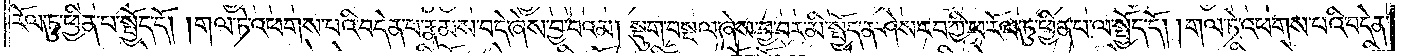རོལ་ཏུ་ཕྱིན་པ་ལ་སྤྱོད་དོ། །གལ་ཏེ་འཕགས་པའི་བདེན་པ་རྣམས་བདེ་ཞེས་བྱ་བའམ། སྡུག་བསྔལ་ཞེས་བྱ་བར་མི་སྤྱོད་ན་ཤེས་རབ་ཀྱི་ཕ་རོལ་ཏུ་ཕྱིན་པ་ལ་སྤྱོད་དོ། །གལ་ཏེ་འཕགས་པའི་བདེན་
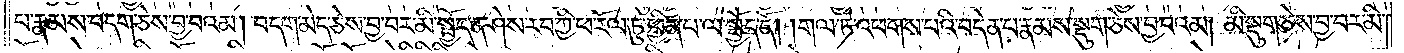པ་རྣམས་བདག་ཅེས་བྱ་བའམ། བདག་མེད་ཅེས་བྱ་བར་མི་སྤྱོད་ན་ཤེས་རབ་ཀྱི་ཕ་རོལ་ཏུ་ཕྱིན་པ་ལ་སྤྱོད་དོ། །གལ་ཏེ་འཕགས་པའི་བདེན་པ་རྣམས་སྡུག་ཅེས་བྱ་བའམ། མི་སྡུག་ཅེས་བྱ་བར་མི་
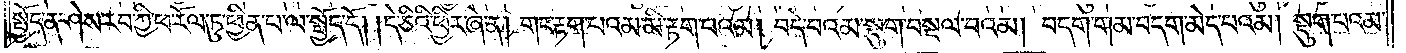སྤྱོད་ན་ཤེས་རབ་ཀྱི་ཕ་རོལ་ཏུ་ཕྱིན་པ་ལ་སྤྱོད་དོ། །དེ་ཅིའི་ཕྱིར་ཞེ་ན། གང་རྟག་པའམ་མི་རྟག་པའམ། བདེ་བའམ་སྡུག་བསྔལ་བའམ། བདག་གམ་བདག་མེད་པའམ། སྡུག་པའམ་
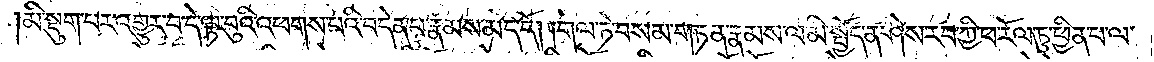མི་སྡུག་པར་འགྱུར་བ་དེ་ལྟ་བུའི་འཕགས་པའི་བདེན་པ་རྣམས་མེད་དོ། །གལ་ཏེ་བསམ་གཏན་རྣམས་ལ་མི་སྤྱོད་ན་ཤེས་རབ་ཀྱི་ཕ་རོལ་ཏུ་ཕྱིན་པ་ལ་
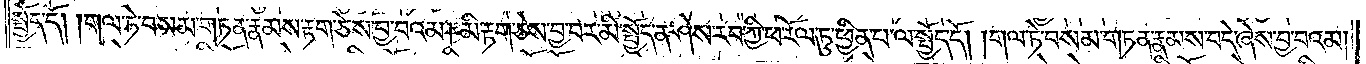སྤྱོད་དོ། །གལ་ཏེ་བསམ་གཏན་རྣམས་རྟག་ཅེས་བྱ་བའམ། མི་རྟག་ཅེས་བྱ་བར་མི་སྤྱོད་ན་ཤེས་རབ་ཀྱི་ཕ་རོལ་ཏུ་ཕྱིན་པ་ལ་སྤྱོད་དོ། །གལ་ཏེ་བསམ་གཏན་རྣམས་བདེ་ཞེས་བྱ་བའམ།
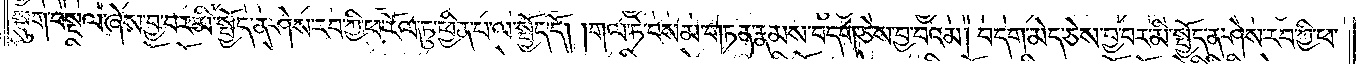སྡུག་བསྔལ་ཞེས་བྱ་བར་མི་སྤྱོད་ན་ཤེས་རབ་ཀྱི་ཕ་རོལ་ཏུ་ཕྱིན་པ་ལ་སྤྱོད་དོ། །གལ་ཏེ་བསམ་གཏན་རྣམས་བདག་ཅེས་བྱ་བའམ། བདག་མེད་ཅེས་བྱ་བར་མི་སྤྱོད་ན་ཤེས་རབ་ཀྱི་ཕ་
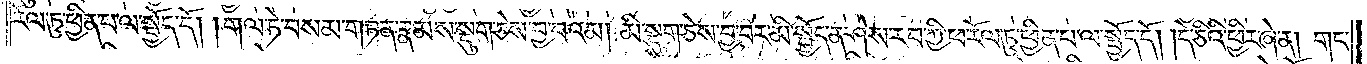རོལ་ཏུ་ཕྱིན་པ་ལ་སྤྱོད་དོ། །གལ་ཏེ་བསམ་གཏན་རྣམས་སྡུག་ཅེས་བྱ་བའམ། མི་སྡུག་ཅེས་བྱ་བར་མི་སྤྱོད་ན་ཤེས་རབ་ཀྱི་ཕ་རོལ་ཏུ་ཕྱིན་པ་ལ་སྤྱོད་དོ། །དེ་ཅིའི་ཕྱིར་ཞེ་ན། གང་
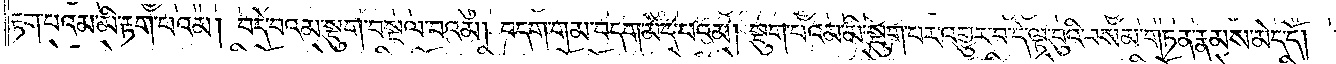རྟག་པའམ་མི་རྟག་པའམ། བདེ་བའམ་སྡུག་བསྔལ་བའམ། བདག་གམ་བདག་མེད་པའམ། སྡུག་པའམ་མི་སྡུག་པར་འགྱུར་བ་དེ་ལྟ་བུའི་བསམ་གཏན་རྣམས་མེད་དོ། །
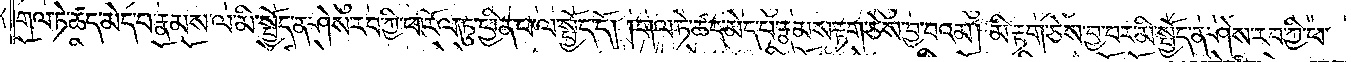གལ་ཏེ་ཚད་མེད་པ་རྣམས་ལ་མི་སྤྱོད་ན་ཤེས་རབ་ཀྱི་ཕ་རོལ་ཏུ་ཕྱིན་པ་ལ་སྤྱོད་དོ། །གལ་ཏེ་ཚད་མེད་པ་རྣམས་རྟག་ཅེས་བྱ་བའམ། མི་རྟག་ཅེས་བྱ་བར་མི་སྤྱོད་ན་ཤེས་རབ་ཀྱི་ཕ་
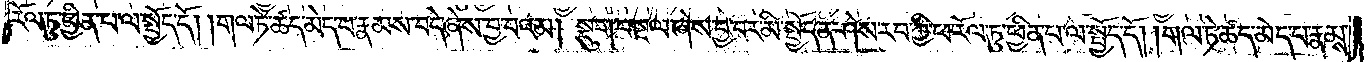རོལ་ཏུ་ཕྱིན་པ་ལ་སྤྱོད་དོ། །གལ་ཏེ་ཚད་མེད་པ་རྣམས་བདེ་ཞེས་བྱ་བའམ། སྡུག་བསྔལ་ཞེས་བྱ་བར་མི་སྤྱོད་ན་ཤེས་རབ་ཀྱི་ཕ་རོལ་ཏུ་ཕྱིན་པ་ལ་སྤྱོད་དོ། །གལ་ཏེ་ཚད་མེད་པ་རྣམས་
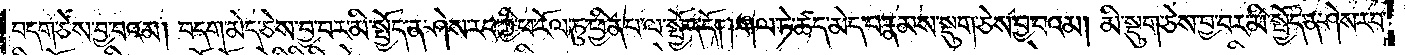བདག་ཅེས་བྱ་བའམ། བདག་མེད་ཅེས་བྱ་བར་མི་སྤྱོད་ན་ཤེས་རབ་ཀྱི་ཕ་རོལ་ཏུ་ཕྱིན་པ་ལ་སྤྱོད་དོ། །གལ་ཏེ་ཚད་མེད་པ་རྣམས་སྡུག་ཅེས་བྱ་བའམ། མི་སྡུག་ཅེས་བྱ་བར་མི་སྤྱོད་ན་ཤེས་རབ་
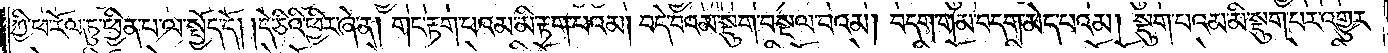ཀྱི་ཕ་རོལ་ཏུ་ཕྱིན་པ་ལ་སྤྱོད་དོ། །དེ་ཅིའི་ཕྱིར་ཞེ་ན། གང་རྟག་པའམ་མི་རྟག་པའམ། བདེ་བའམ་སྡུག་བསྔལ་བའམ། བདག་གམ་བདག་མེད་པའམ། སྡུག་པའམ་མི་སྡུག་པར་འགྱུར་
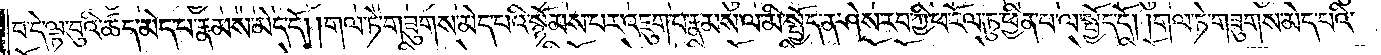བ་དེ་ལྟ་བུའི་ཚད་མེད་པ་རྣམས་མེད་དོ། །གལ་ཏེ་གཟུགས་མེད་པའི་སྙོམས་པར་འཇུག་པ་རྣམས་ལ་མི་སྤྱོད་ན་ཤེས་རབ་ཀྱི་ཕ་རོལ་ཏུ་ཕྱིན་པ་ལ་སྤྱོད་དོ། །གལ་ཏེ་གཟུགས་མེད་པའི་
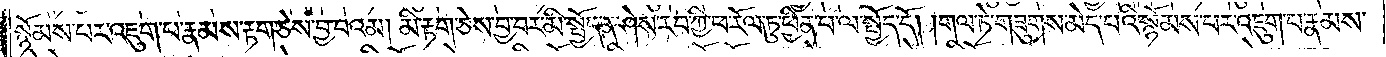སྙོམས་པར་འཇུག་པ་རྣམས་རྟག་ཅེས་བྱ་བའམ། མི་རྟག་ཅེས་བྱ་བར་མི་སྤྱོད་ན་ཤེས་རབ་ཀྱི་ཕ་རོལ་ཏུ་ཕྱིན་པ་ལ་སྤྱོད་དོ། །གལ་ཏེ་གཟུགས་མེད་པའི་སྙོམས་པར་འཇུག་པ་རྣམས་
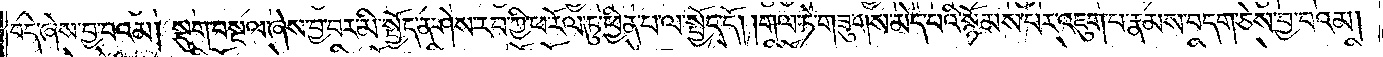བདེ་ཞེས་བྱ་བའམ། སྡུག་བསྔལ་ཞེས་བྱ་བར་མི་སྤྱོད་ན་ཤེས་རབ་ཀྱི་ཕ་རོལ་ཏུ་ཕྱིན་པ་ལ་སྤྱོད་དོ། །གལ་ཏེ་གཟུགས་མེད་པའི་སྙོམས་པར་འཇུག་པ་རྣམས་བདག་ཅེས་བྱ་བའམ།
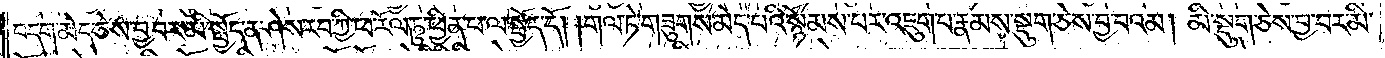བདག་མེད་ཅེས་བྱ་བར་མི་སྤྱོད་ན་ཤེས་རབ་ཀྱི་ཕ་རོལ་ཏུ་ཕྱིན་པ་ལ་སྤྱོད་དོ། །གལ་ཏེ་གཟུགས་མེད་པའི་སྙོམས་པར་འཇུག་པ་རྣམས་སྡུག་ཅེས་བྱ་བའམ། མི་སྡུག་ཅེས་བྱ་བར་མི་
